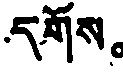དགོས。
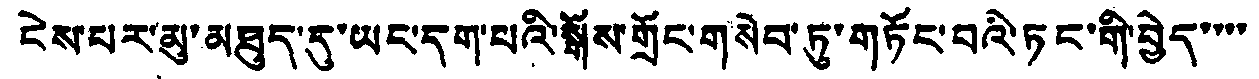ངེས་པར་མུ་མཐུད་དུ་ཡང་དག་པའི་སྒོས་གྲོང་གསེབ་ཏུ་གཏོང་བའི་ཏང་གི་བྱེད་་་་
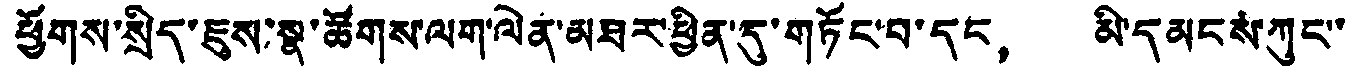ཕྱོགས་སྲིད་ཇུས་སྣ་ཚོགས་ལག་ལེན་མཐར་ཕྱིན་དུ་གཏོང་བ་དང， མི་དམངས་ཀུང་
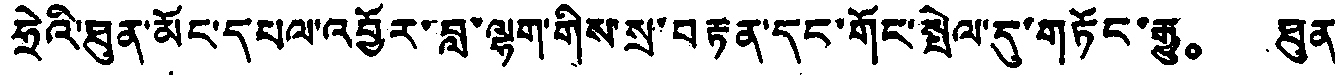ཧྲེའི་ཐུན་མོང་དཔལ་འབྱོར་བླ་ལྷག་གིས་སྲ་བརྟན་དང་གོང་སྤེལ་དུ་གཏོང་རྒྱུ。 ཐུན་
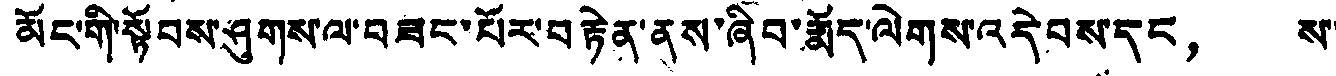མོང་གི་སྟོབས་ཤུགས་ལ་བཟང་པོར་བརྟེན་ནས་ཞིབ་རྨོད་ལེགས་འདེབས་དང， ས་
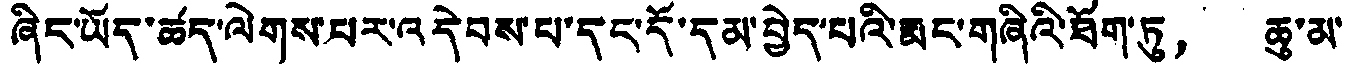ཞིང་ཡོད་ཚད་ལེགས་པར་འདེབས་པ་དང་དོ་དམ་བྱེད་པའི་རྨང་གཞིའི་ཐོག་ཏུ， ཆུ་མ་
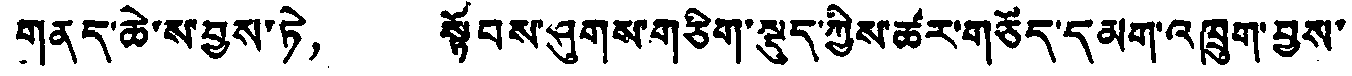གནད་ཆེ་ས་བྱས་ཏེ， སྟོབས་ཤུགས་གཅིག་སྡུད་ཀྱིས་ཚར་གཅོད་དམག་འཁྲུག་བྱས་
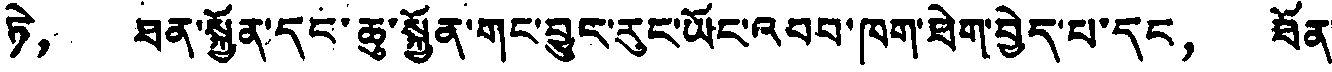ཏེ， ཐན་སྐྱོན་དང་ཆུ་སྐྱོན་གང་བྱུང་རུང་ཡོང་འབབ་ཁག་ཐེག་བྱེད་པ་དང， ཐོན་
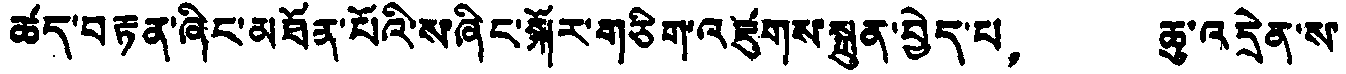ཚད་བརྟན་ཞིང་མཐོན་པོའི་ས་ཞིང་སྐོར་གཅིག་འཛུགས་སྐྲུན་བྱེད་པ， ཆུ་འདྲེན་ས་
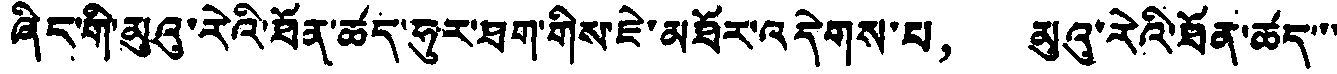ཞིང་གི་མུའུ་རེའི་ཐོན་ཚད་ཧུར་ཐག་གིས་ཇེ་མཐོར་འདེགས་པ， མུའུ་རེའི་ཐོན་ཚད་་་
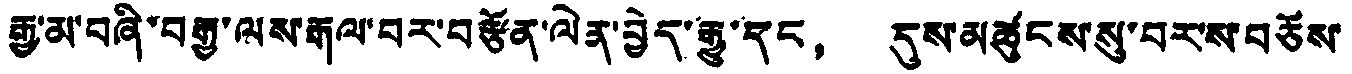རྒྱ་མ་བཞི་བརྒྱ་ལས་རྒལ་བར་བརྩོན་ལེན་བྱེད་རྒྱུ་དང， དུས་མཚུངས་སུ་བརས་བཅོས་
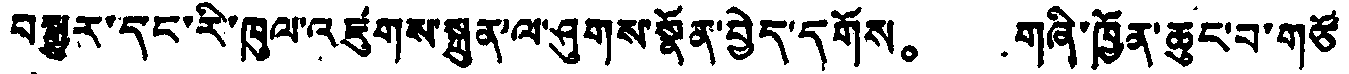བསྒྱུར་དང་རི་ཁུལ་འཛུགས་སྐྲུན་ལ་ཤུགས་སྣོན་བྱེད་དགོས。 གཞི་ཁྱོན་ཆུང་བ་གཙོ་
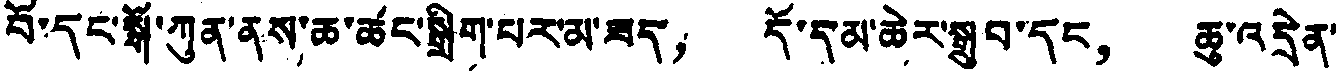བོ་དང་སྒོ་ཀུན་ནས་ཆ་ཚང་སྒྲིག་པར་མ་ཟད， དོ་དམ་ཆེར་སྒྲུབ་དང， ཆུ་འདྲེན་
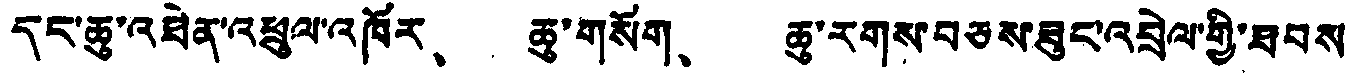དང་ཆུ་འཐེན་འཕྲུལ་འཁོར、 ཆུ་གསོག、 ཆུ་རགས་བཅས་ཟུང་འབྲེལ་གྱི་ཐབས
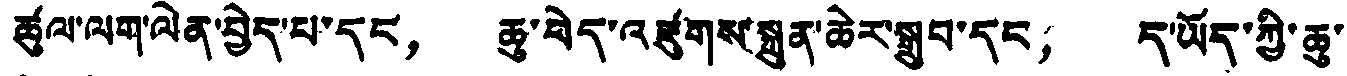ཚུལ་ལག་ལེན་བྱེད་པ་དང， ཆུ་ཕེད་འཛུགས་སྐྲུན་ཆེར་སྒྲུབ་དང， ད་ཡོད་ཀྱི་ཆུ་
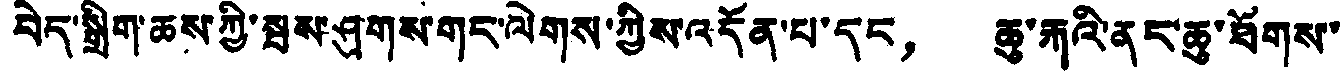བེད་སྒྲིག་ཆས་ཀྱི་སྦས་ཤུགས་གང་ལེགས་ཀྱིས་འདོན་པ་དང， ཆུ་རྐའི་ནང་ཆུ་ཐོགས་
